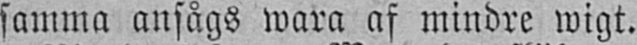samma ansågs wara af mindre wigt.
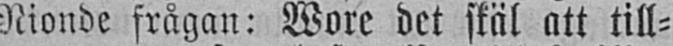Nionde frågan: Wore det skäl att till-
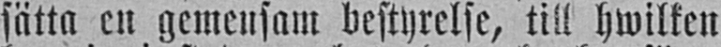sätta en gemensam bestyrelse, till hwilken
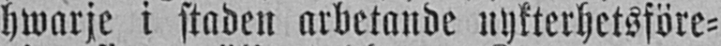hwarje i staden arbetande nykterhetsföre-
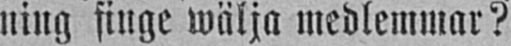ning finge wälja medlemmar?
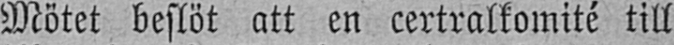Mötet beslöt att en centralkomité till
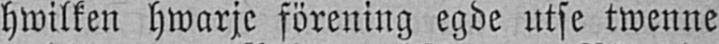hwilken hwarje förening egde utse twenne
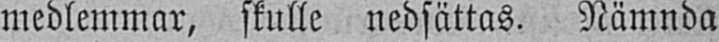medlemmar, skulle nedsättas. Nämnda
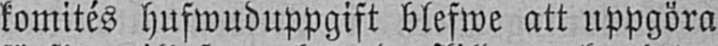komités hufwuduppgift blefwe att uppgöra
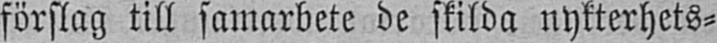förslag till samarbete de skilda nykterhets-
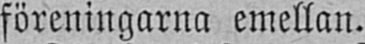föreningarna emellan.
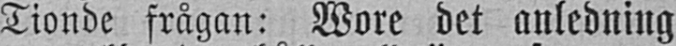Tionde frågan: Wore det anledning
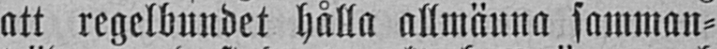att regelbundet hålla allmänna samman-
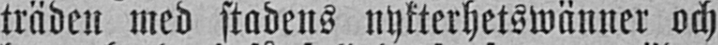träden med stadens nykterhetswänner och
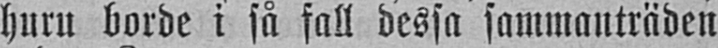huru borde i så fall dessa sammanträden
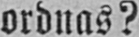ordnas?
